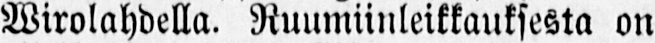Wirolahdella. Ruumiinleikkauksesta on
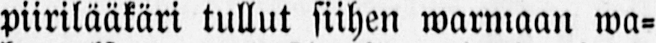piirilääkäri tullut siihen warmaan wa-
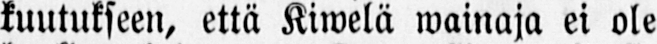kuutukseen, että Kiwelä wainaja ei ole
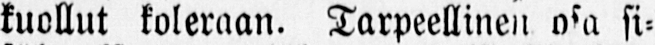kuollut koleraan. Tarpeellinen isiä si-
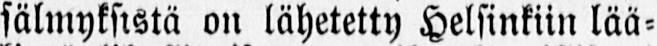sälmyksistä on lähetetty Helsinkiin lää-
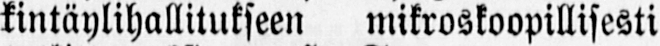kintäylihallitukseen mikroskoopillisesti
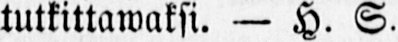tutkittawaksi. — H. S.
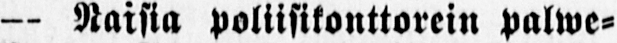— Naisia poliisikonttorein palwe-
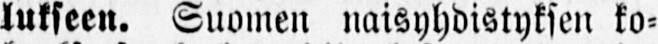lukseen. Suomen naisyhdistyksen ko-
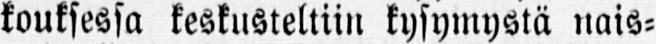kouksessa keskusteltiin kysymystä nais-
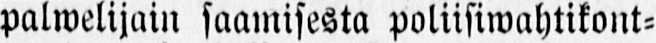palwelijain saamisesta poliisiwahtikont-
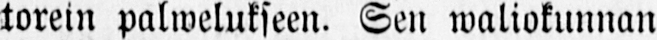torein palwelukseen. Sen waliokunnan
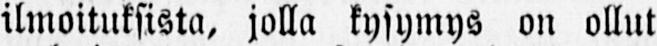ilmoituksista, jolla kysymys on ollut
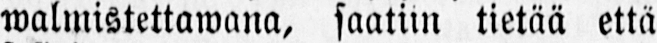walmistettawana, saatiin tietää että
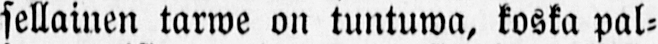sellainen tarwe on tuntuwa, koska pal-
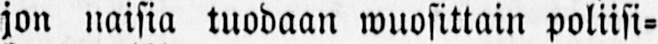jon naisia tuodaan wuosittain poliisi-
